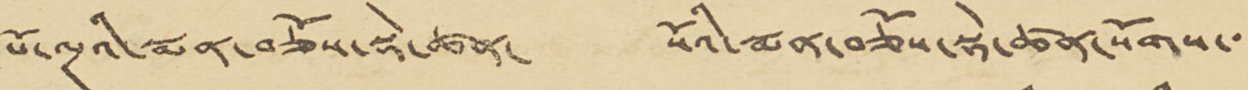པོ་ལྔའི་སྨན་བཅོས་སྡེ་ཚན་ སོའི་སྨན་བཅོས་སྡེ་ཚན་སོགས་་་
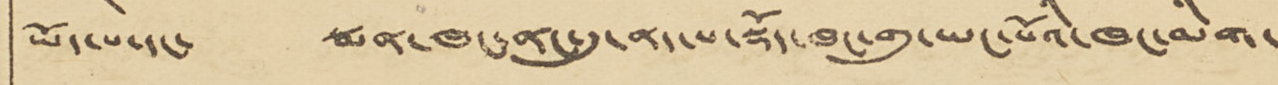ཡོད་པ་དང་ སྨན་ཁང་ནང་དུ་ནད་པ་སྡོད་ཁང་གུ་ཡང་པོའི་ཁང་མིག་
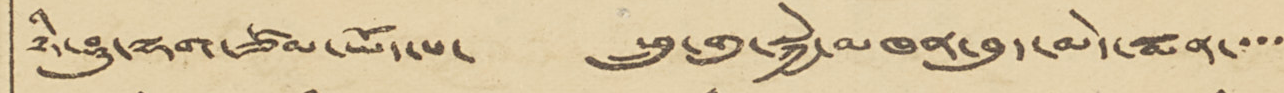ཉི་ཤུ་ལྷག་ཙམ་ཡོད་པ་ ཕྲུ་གུ་སྐྱེ་མཁན་བུད་མེད་སྨན་་་་
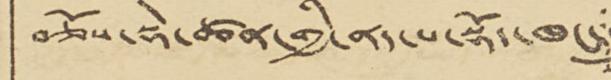བཅོས་སྡེ་ཚན་གྱི་ནད་པ་སྡོད་ཁང་
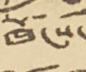ཁོངས་
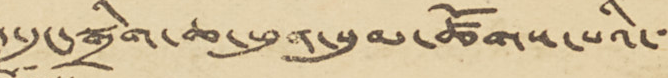ད་དུང་སྒྲིག་ཆ་ཕུན་སུམ་ཚོགས་པའི་་
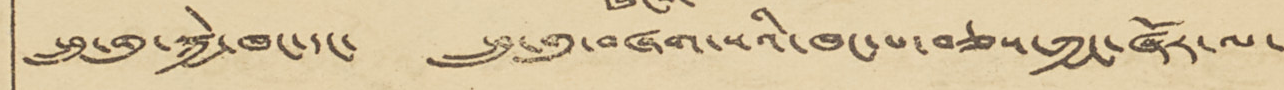ཕྲུ་གུ་སྐྱེ་ཁང་དང་ ཕྲུ་གུ་བཞག་སའི་ཁང་པ་བཅས་ཀྱང་ཞོར་ལ་
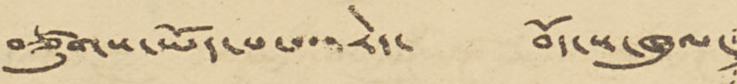བཙུགས་ཡོད་པ་རེད་ བོད་ས་ཁུལ་
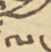ལ་
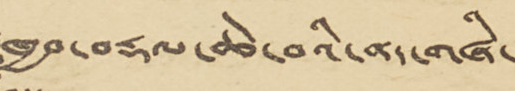ཁྱབ་བརྡལ་ཆེ་བའི་ནད་གཞི་
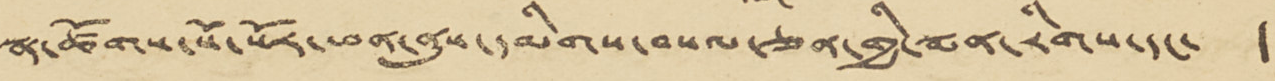སྣ་ཚོགས་སོ་སོར་ཕན་ནུས་དམིགས་བསལ་ཅན་གྱི་སྨན་རིགས་དང་ །
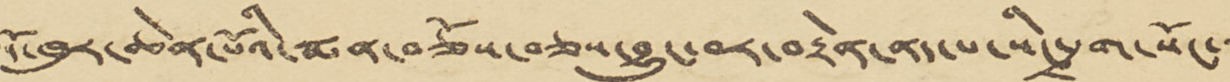དོ་ཁུར་ཆེན་པོའི་སྨན་བཅོས་བཅས་བྱུང་བར་བརྟེན་ནད་པ་སིང་དྲག་སོང་་་
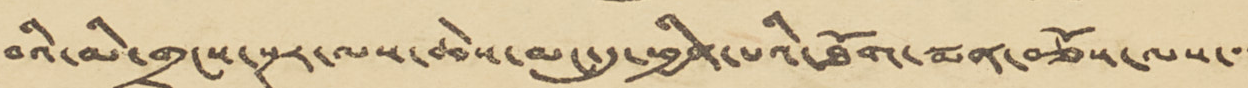བའི་མི་གྲངས་སྔར་ལས་ཆེས་མང་དུ་ཕྱིན་པའི་ཐོག་སྨན་བཅོས་ལས་་་
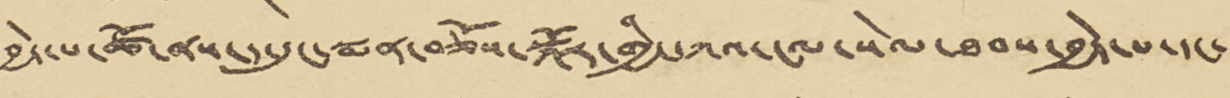བྱེད་པ་ཚོ་ནས་ད་དུང་སྨན་བཅོས་སྐོར་གྱི་དཀའ་ངལ་སེལ་ཐབས་བྱེད་པ་དང་
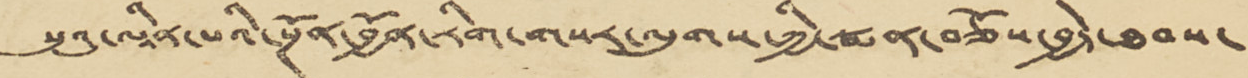སུའུ་ལཱིན་པའི་སྔོན་བྱོན་རིག་གསར་ལུགས་ཀྱི་སྨན་བཅོས་བྱེད་ཐབས་
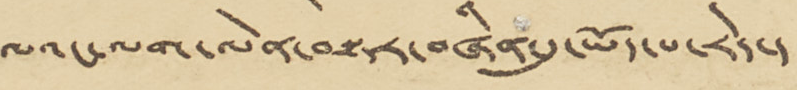ལའང་ལག་ལེན་བསྟར་བཞིན་དུ་ཡོད་པ་རེད་།
